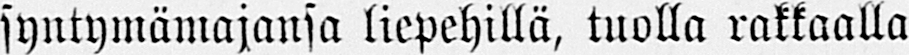syntymämajansa liepehillä, tuolla rakkaalla
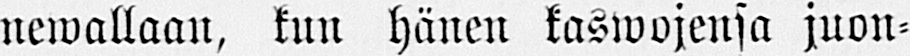newallaan, kun hänen kaswojensa juon-
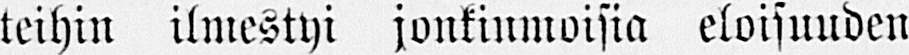teihin ilmestyi jonkinmoisia eloisuuden
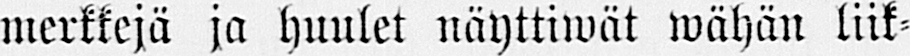merkkejä ja huulet näyttiwät wähän liik-
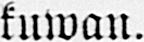kuwan.
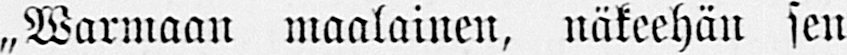„Warmaan maalainen, näkeehän sen
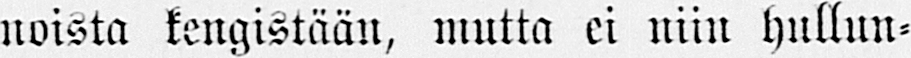noista kengistään, mutta ei niin hullun-
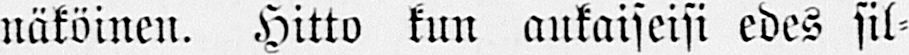näköinen. Hitto kun aukaiseisi edes sil-
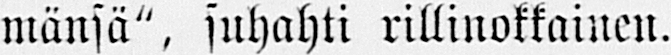mänsä", suhahti rillinokkainen.
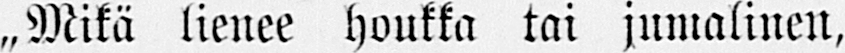„Mikä lienee houkka tai jumalinen,
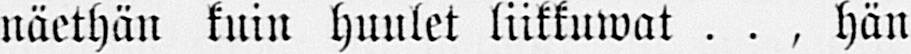näethän kuin huulet liikkuwat . . , hän
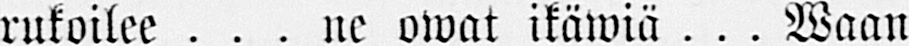rukoilee . . . ne owat ikäwiä . . . Waan
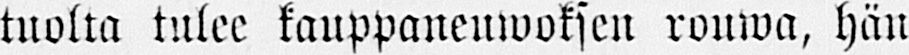tuolta tulee kauppaneuwoksen rouwa, hän
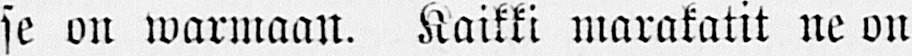se on warmaan. Kaikki marakatit ne on
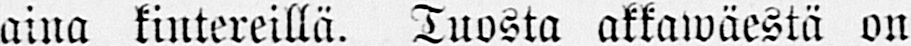aina kintereillä. Tuosta akkawäestä on
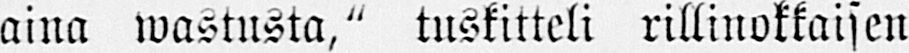aina wastusta," tuskitteli rillinokkaisen
